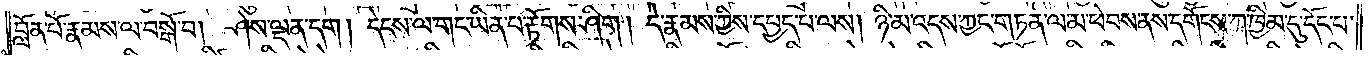བློན་པོ་རྣམས་ལ་བསྒོ་བ། ཤེས་ལྡན་དག། དེངས་ལ་གང་ཡིན་པ་རྟོགས་ཤིག། དེ་རྣམས་ཀྱིས་དཔྱད་པ་ལས། ཉི་མ་འདས་ཀྱང་གཏན་ལ་མ་ཕེབས་ནས་དགོངས་ཀ་ཁྱིམ་དུ་དོང་པ་
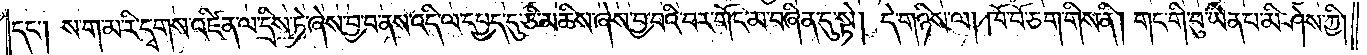དང༌། ས་ག་མ་རི་དྭགས་འཛིན་ལ་དྲིས་ཏེ་ཞེས་བྱ་བ་ནས་འདི་ལ་དཔྱད་དུ་ཅི་མཆིས་ཞེས་བྱ་བའི་ངར་གོང་མ་བཞིན་དུ་སྟེ། དེ་གཉིས་ལ། ཁོ་བོ་ཅག་གིས་ནི། གང་གི་བུ་ཡིན་པ་མི་ཤེས་ཀྱི།
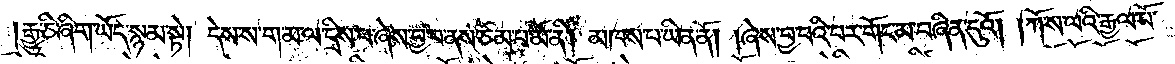རྒྱུ་ཅི་ཞིག་ཡོད་སྙམ་སྟེ། དེས་ས་ག་མ་ལ་དྲིས་པ་ཞེས་བྱ་བ་ནས་ཙམ་པ་མོ་ནི། མཁས་པ་ཡིན་ནོ། །ཞེས་བྱ་བའི་བར་གོང་མ་བཞིན་དུའོ། །ཀོ་ས་ལའི་རྒྱལ་པོ་
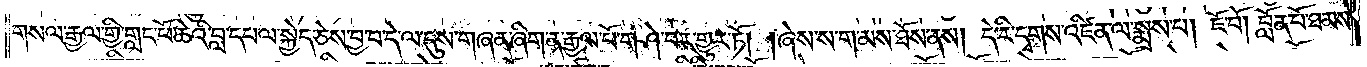གསལ་རྒྱལ་གྱི་གླང་པོ་ཆེའི་བླ་དཔལ་སྐྱེད་ཅེས་བྱ་བ་དེ་ལ་དུས་གཞན་ཞིག་ན་རྒྱལ་པོ་གཤེ་བར་གྱུར་ཏོ། །ཞེས་ས་ག་མས་ཐོས་ནས། དེ་རི་དྭགས་འཛིན་ལ་སྨྲས་པ། ཇོ་བོ། བློན་པོ་ཐམས་
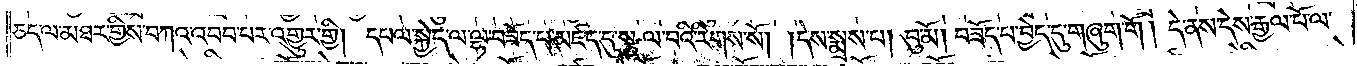ཅད་ལ་མཐར་གྱིས་བཀའ་འབབ་པར་འགྱུར་གྱི། དཔལ་སྐྱེད་ལ་ལྷ་བཟོད་པ་མཛད་དུ་སྩལ་བའི་རིགས་སོ། །དེས་སྨྲས་པ། བུ་མོ། བཟོད་པ་བྱེད་དུ་གཞུག་གོ། དེ་ནས་དེས་རྒྱལ་པོ་ལ་
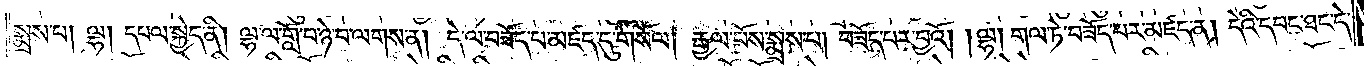སྨྲས་པ། ལྷ། དཔལ་སྐྱེད་ནི། ལྷ་ལ་གློ་བ་ཉེ་བ་ལགས་ན། དེ་ལ་བཟོད་པ་མཛད་དུ་གསོལ། རྒྱལ་པོས་སྨྲས་པ། བཟོད་པར་བྱའོ། །ལྷ། གལ་ཏེ་བཟོད་པར་མཛད་ན། དེའི་དབང་ཐང་དེ་
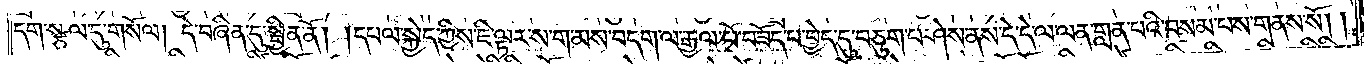དག་སྩལ་དུ་གསོལ། དེ་བཞིན་དུ་སྦྱིན་ནོ། །དཔལ་སྐྱེད་ཀྱིས་ཇི་ལྟར་ས་ག་མས་བདག་ལ་རྒྱལ་པོ་བཟོད་པ་བྱེད་དུ་བཅུག་པ་ཤེས་ནས་དེ་དེ་ལ་ལན་གླན་པའི་བསམ་པས་གནས་སོ༎
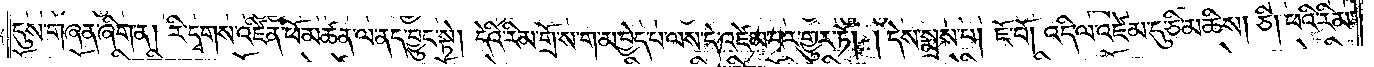དུས་གཞན་ཞིག་ན། རི་དྭགས་འཛིན་ཕོ་མཚན་ལ་ནད་བྱུང་སྟེ། དེའི་རིམ་གྲོས་ག་མ་བྱེད་པ་ལས་དེ་འཛེམ་པར་གྱུར་ཏོ། །དེས་སྨྲས་པ། ཇོ་བོ། འདི་ལ་འཛེམ་དུ་ཅི་མཆིས། ཅི། ཕའི་རིམ་
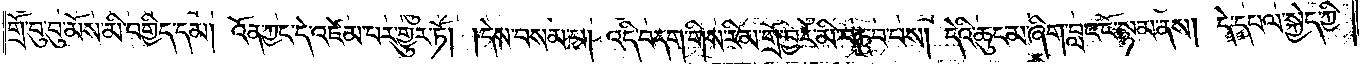གྲོ་བུ་བུ་མོས་མི་བགྱིད་དམ། འོན་ཀྱང་དེ་འཛེམ་པར་གྱུར་ཏོ། །དེས་བསམ་པ། འདི་བདག་གིས་རིམ་གྲོ་བྱར་མི་བཏུབ་པས། དེའི་ཆུང་མ་ཞིག་བླང་ངོ་སྙམ་ནས། དེ་དཔལ་སྐྱེད་ཀྱི་
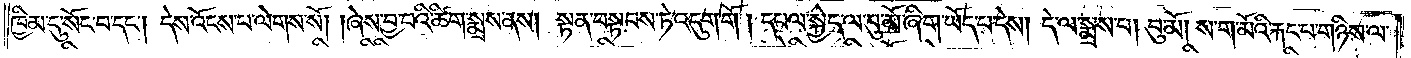ཁྱིམ་དུ་སོང་བ་དང༌། དེས་འོངས་པ་ལེགས་སོ། །ཞེས་བྱ་བའི་ཚིག་སྨྲས་ནས། སྟན་བསྟབས་ཏེ་འདུག་གོ། དཔལ་སྐྱེད་ལ་བུ་མོ་ཞིག་ཡོད་པ་དེས། དེ་ལ་སྨྲས་པ། བུ་མོ། ས་ག་མོའི་རྐང་པ་གཉིས་ལ་
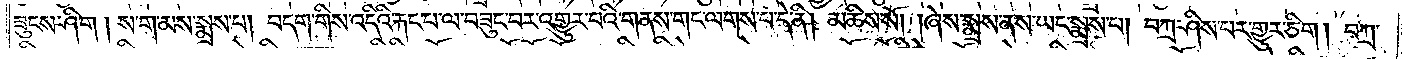ཟུངས་ཤིག། ས་ག་མས་སྨྲས་པ། བདག་གིས་འདིའི་རྐང་པ་ལ་བཟུང་བར་འགྱུར་བའི་གནས་གང་ལགས་པ་དེ་ནི། མཆིས་སོ། །ཞེས་སྨྲས་ནས་ཡང་སྨྲས་པ། བཀྲ་ཤིས་པར་གྱུར་ཅིག། བཀྲ་
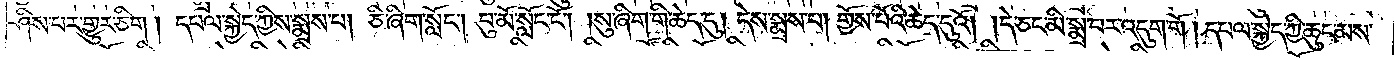ཤིས་པར་གྱུར་ཅིག། དཔལ་སྐྱེད་ཀྱིས་སྨྲས་པ། ཅི་ཞིག་སློང༌། བུ་མོ་སློང་ངོ༌། །སུ་ཞིག་གི་ཆེད་དུ། དེས་སྨྲས་པ། གྱོས་པོའི་ཆེད་དུའོ། །དེ་ཅང་མི་སྨྲ་བར་འདུག་གོ། དཔལ་སྐྱེད་ཀྱི་ཆུང་མས་
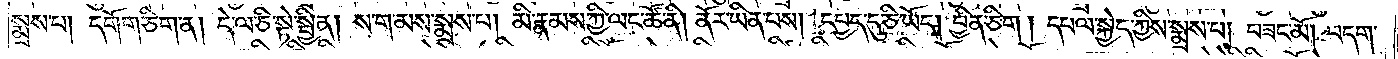སྨྲས་པ། དགོག་ཅིག་ན། དེ་ལ་ཅི་སྟེ་སྦྱིན། ས་ག་མས་སྨྲས་པ། མི་རྣམས་ཀྱི་ལང་ཚོ་ནི། ནོར་ཡིན་པས། དཔྱད་དུ་ཅི་ཡོད། བྱིན་ཅིག། དཔལ་སྐྱེད་ཀྱིས་སྨྲས་པ། བཟང་མོ། བདག་
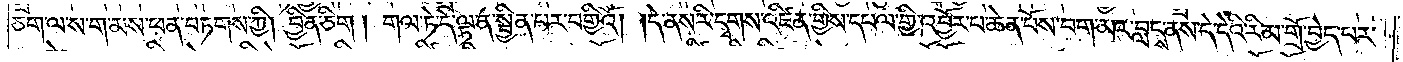ཅག་ལ་ས་ག་མས་ཕན་བཏགས་ཀྱི། བྱིན་ཅིག། གལ་ཏེ་དེ་ལྟ་ན་སྦྱིན་པར་བགྱིའོ། །དེ་ནས་རི་དྭགས་འཛིན་གྱིས་དཔལ་གྱི་འབྱོར་པ་ཆེན་པོས་བག་མར་བླངས་ནས་དེ་དེའི་རིམ་གྲོ་བྱེད་པར་
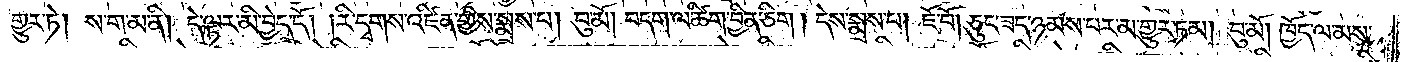གྱུར་ཏེ། ས་ག་མ་ནི། དེ་ལྟར་མི་བྱེད་དོ། །རི་དྭགས་འཛིན་གྱིས་སྨྲས་པ། བུ་མོ། བདག་ལ་ཚིག་བྱིན་ཅིག། དེས་སྨྲས་པ། ཇོ་བོ། ཅུང་ཟད་ཉམས་པར་མ་གྱུར་ཏམ། བུ་མོ། ཁྱོད་ལ་མས་
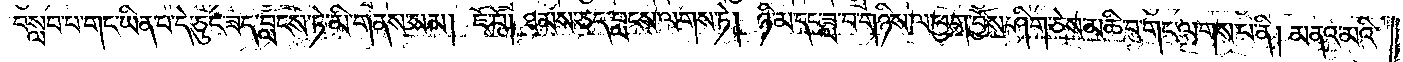བསླབ་པ་གང་ཡིན་པ་དེ་ཅུང་ཟད་བླངས་ཏེ་མི་གནས་སམ། ཇོ་བོ། ཐམས་ཅད་བླངས་ལགས་ཏེ། ཉི་མ་དང་ཟླ་བ་གཉིས་ལ་ཕྱག་བྱོས་ཤིག་ཅེས་མཆི་བ་གང་ལགས་པ་ནི། མནའ་མའི་
